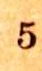5
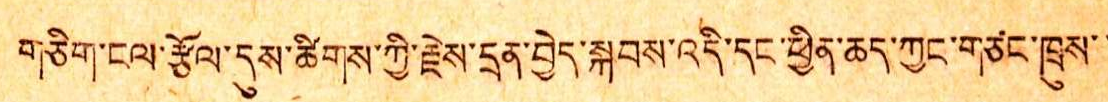གཅིག་ངལ་རྩོལ་དུས་ཚིགས་ཀྱི་རྗེས་དྲན་བྱེད་སྐབས་འདི་དང་ཕྱིན་ཆད་ཀྱང་གཙང་ཁྲུས་་་
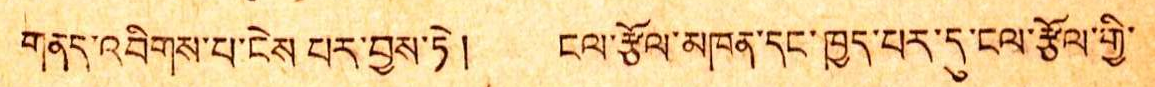གནད་འབིགས་པ་ངེས པར་བྱས་ཏེ། ངལ་རྩོལ་མཁན་དང་ཁྱད་པར་དུ་ངལ་རྩོལ་གྱི་
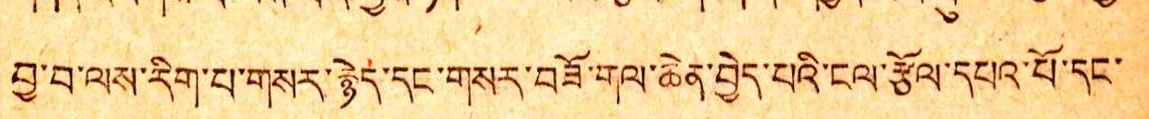བྱ་བ་ལས་རིག་པ་གསར་རྙེད་དང་གསར་བཟོ་གལ་ཆེན་བྱེད་པའི་ངལ་རྩོལ་དཔའ་པོ་དང་
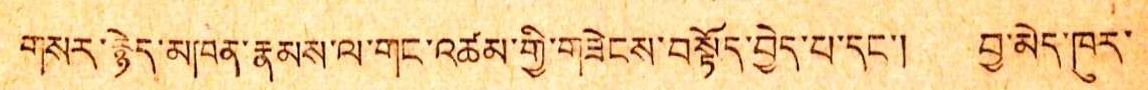གསར་ཉེད་མཁན་རྣམས་ལ་གང་འཚམ་གྱི་གཟེངས་བསྟོད་བྱེད་པ་དང་། བྱ་མེད་ཁུར་
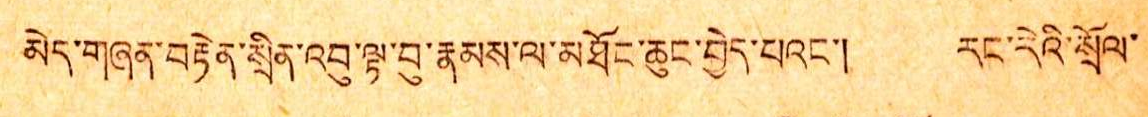མེད་གཞན་བརྟེན་སྲིན་འབུ་ལྟ་བུ་རྣམས་ལ་མཐོང་ཆུང་བྱེད་པའང་། རང་རེའི་སྲོལ་
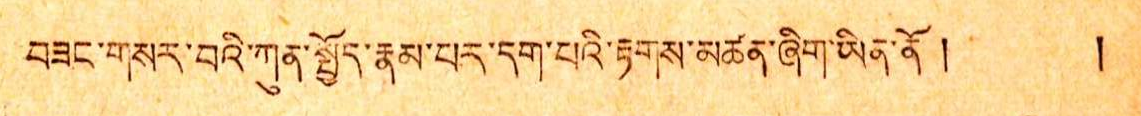བཟང་གསར་བའི་ཀུན་སྤྱོད་རྣམ་པར་དག་པའི་རྟགས་མཚན་ཞིག་ཡིན་ནོ། །
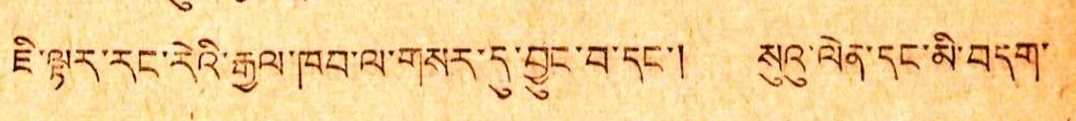ཇི་ལྟར་རང་རེའི་རྒྱལ་ཁབ་ལ་གསར་དུ་བྱུང་བ་དང་། སུའུ་ལེན་དང་མི་བདག་
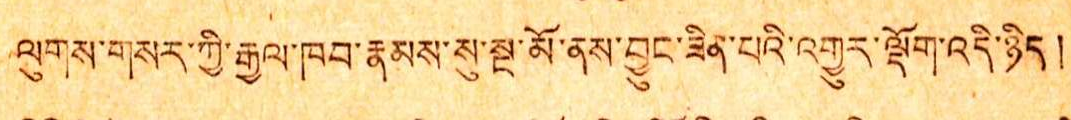ལུགས་གསར་གྱི་རྒྱལ་ཁབ་རྣམས་སུ་སྔ་མོ་ནས་བྱུང་ཟིན་པའི་འགྱུར་ལྡོག་འདི་ཉིད།
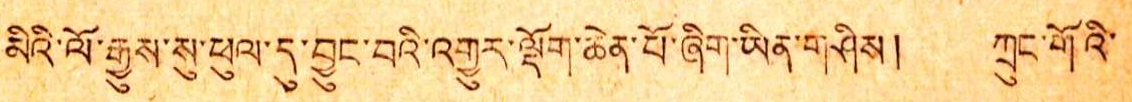མིའི་ལོ་རྒྱུས་སུ་ཕུལ་དུ་བྱུང་བའི་འགྱུར་ལྡོག་ཆེན་པོ་ཞིག་ཡིན་གཤིས། ཀྲུང་གོའི་
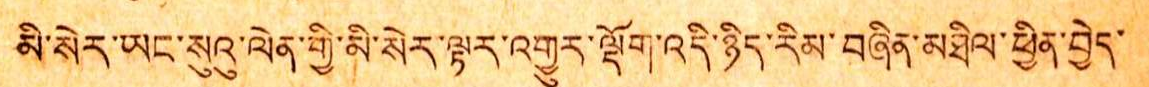མི་སེར་ཡང་སུའུ་ལེན་གྱི་མི་སེར་ལྟར་འགྱུར་ལྡོག་འདི་ཉིད་རིམ་བཞིན་མཐིལ་ཕྱིན་བྱེད་
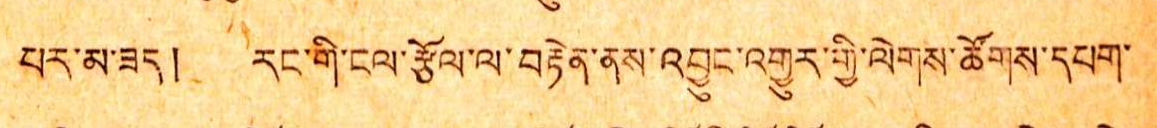པར་མ་ཟད། རང་གི་ངལ་རྩོལ་ལ་བརྟེན་ནས་འབྱུང་འགྱུར་གྱི་ལེགས་ཚོགས་དཔག་
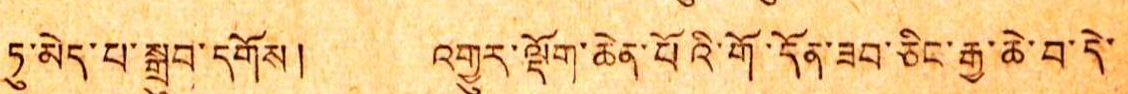ཏུ་མེད་པ་སྒྲུབ་དགོས། འགྱུར་ལྡོག་ཆེན་པོའི་གོ་དོན་ཟབ་ཅིང་རྒྱ་ཆེ་བ་དེ་
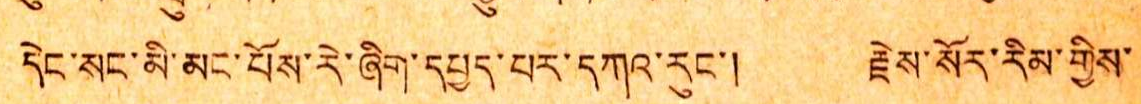ནང་སང་མི་མང་པོས་རེ་ཞིག་དཔྱད་པར་དཀའ་རུང་། རྗེས་སོར་རིམ་གྱིས་
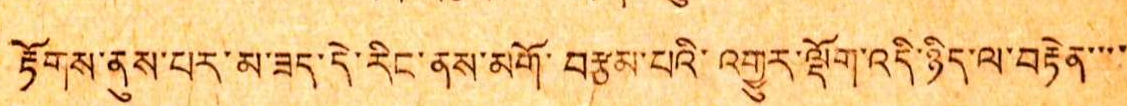རྟོགས་ནུས་པར་མ་ཟད་དེ་རིང་ནས་མགོ་བརྩམ་པའི་འགྱུར་ལྡོག་འདི་ཉིད་ལ་བརྟེན་་་་
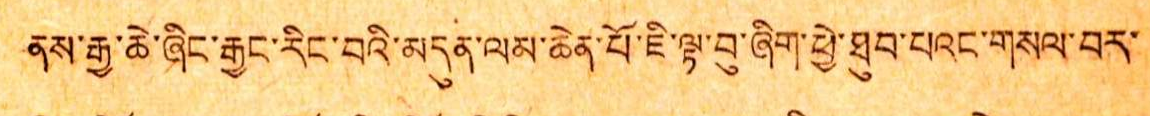ནས་རྒྱ་ཆེ་ཞིང་རྒྱང་རིང་བའི་མདུན་ལམ་ཆེན་པོ་ཇི་ལྟ་བུ་ཞིག་ཕྱེ་ཐུབ་པའང་གསལ་བར་
